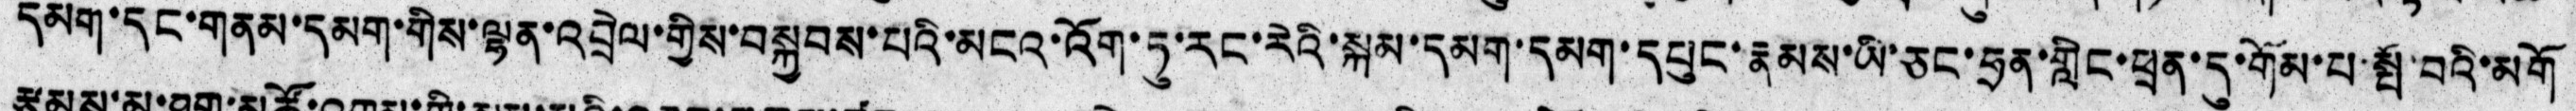དམག་དང་གནམ་དམག་གིས་ལྷན་འབྲེལ་གྱིས་བསྐྱབས་པའི་མངའ་འོག་ཏུ་རང་རེའི་སྐམ་དམག་དམག་དཔུང་རྣམས་ཡི་ཅང་ཧྲན་གླིང་ཕྲན་དུ་གོམ་པ་སྤོ་བའི་མགོ
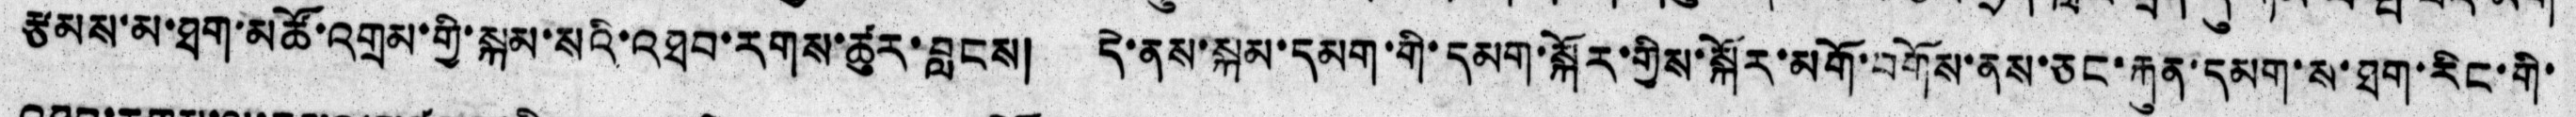རྩམས་མ་ཐག་མཚོ་འགྲམ་གྱི་སྐམ་སའི་འཐབ་རགས་ཚུར་བླངས། དེ་ནས་སྐམ་དམག་གི་དམག་སྐོར་གྱིས་སྐོར་མགོ་བགོས་ནས་ཅང་རྐུན་དམག་ས་ཐག་རིང་གི་
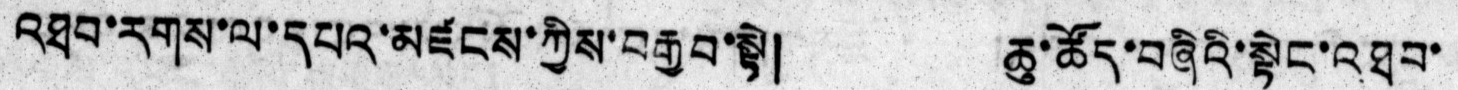འཐབ་རགས་ལ་དཔའ་མཛངས་ཀྱིས་བརྒྱབ་སྟེ། ཆུ་ཚོད་བཞིའི་སྟེང་འཐབ་
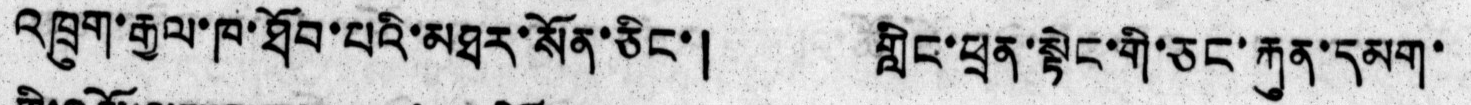འཁྲུག་རྒྱལ་ཁ་ཐོབ་པའི་མཐར་སོན་ཅིང་། གླིང་ཕྲན་སྟེང་གི་ཅང་རྐུན་དམག་
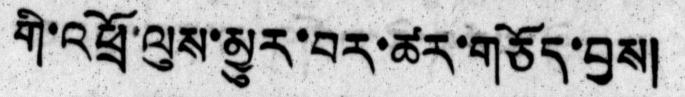གི་འཕྲོ་ལུས་མྱུར་བར་ཚར་གཅོད་བྱས།
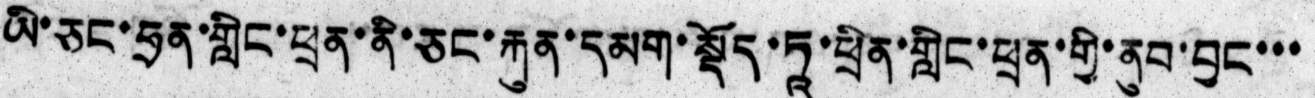ཡི་ཅང་ཧྲན་གླིང་ཕྲན་ནི་ཅང་རྐུན་དམག་སྡོད་ཏཱ་ཕྲིན་གླིང་ཕྲན་གྱི་ནུབ་བྱང་་་
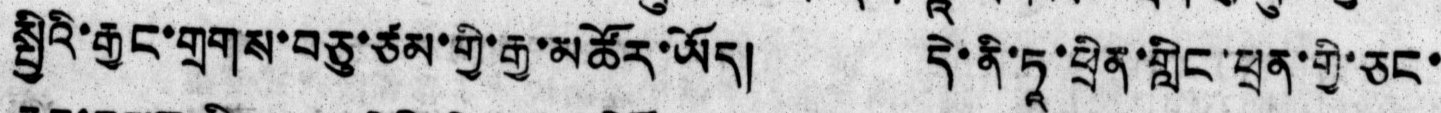སྤྱིའི་རྒྱང་གྲགས་བཅུ་ཙམ་གྱི་རྒྱ་མཚོར་ཡོད། དེ་ནི་ཏཱ་ཕྲིན་གླིང་ཕྲན་གྱི་ཅང་
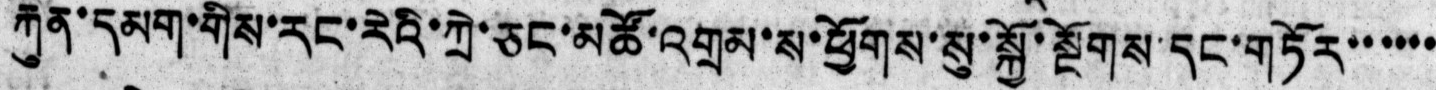རྐུན་དམག་གིས་རང་རེའི་ཀྲེ་ཅང་མཚོ་འགྲམ་ས་ཕྱོགས་སུ་སྐྱོ་སྔོགས་དང་གཏོར་་་་་་
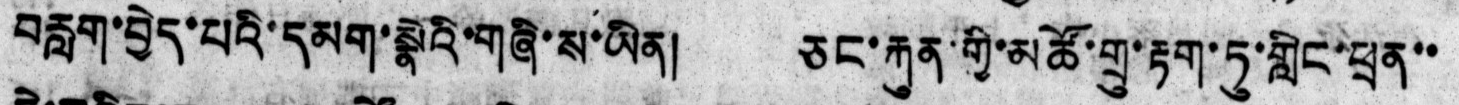བརླག་བྱེད་པའི་དམག་སྣེའི་གཞི་ས་ཡིན། ཅང་རྐུན་གྱི་མཚོ་གྲུ་རྟག་ཏུ་གླིང་ཕྲན་་
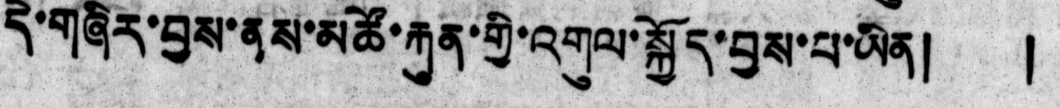དེ་གཞིར་བྱས་ནས་མཚོ་རྐུན་གྱི་འགུལ་སྐྱོད་བྱས་པ་ཡིན།  །
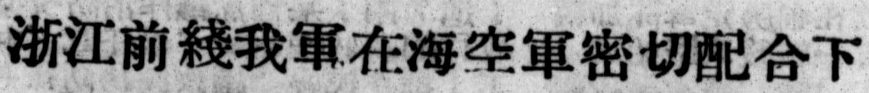浙江前綫我軍在海空軍密切配合下
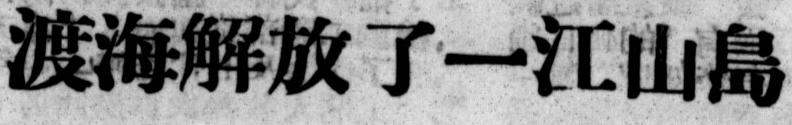渡海解放了一江山島
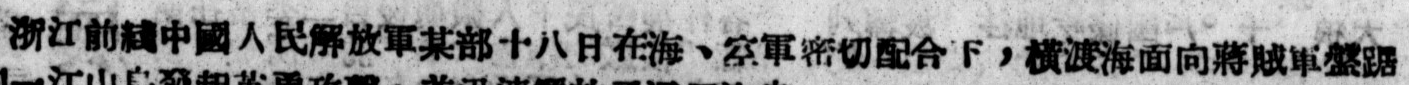浙江前綫中國人民解放軍某部十八日在海、空軍密切配合下，橫渡海面向蔣賊軍盤踞
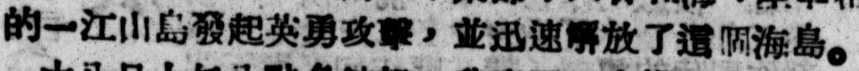的一江山島發起英勇攻擊，並迅速解放了這個海島。
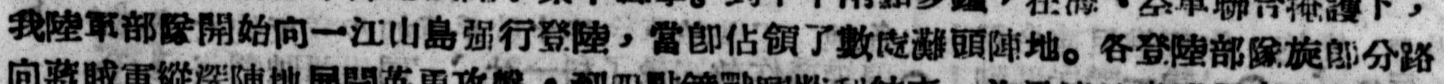我陸軍部隊開始向一江山島強行登陸，當卽佔領了數處灘頭陣地。各登陸部隊旋卽分路
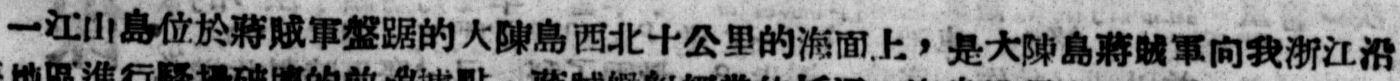一江山島位於蔣賊軍盤踞的大陳島西北十公里的海面上，是大陳島蔣賊軍向我浙江沿
